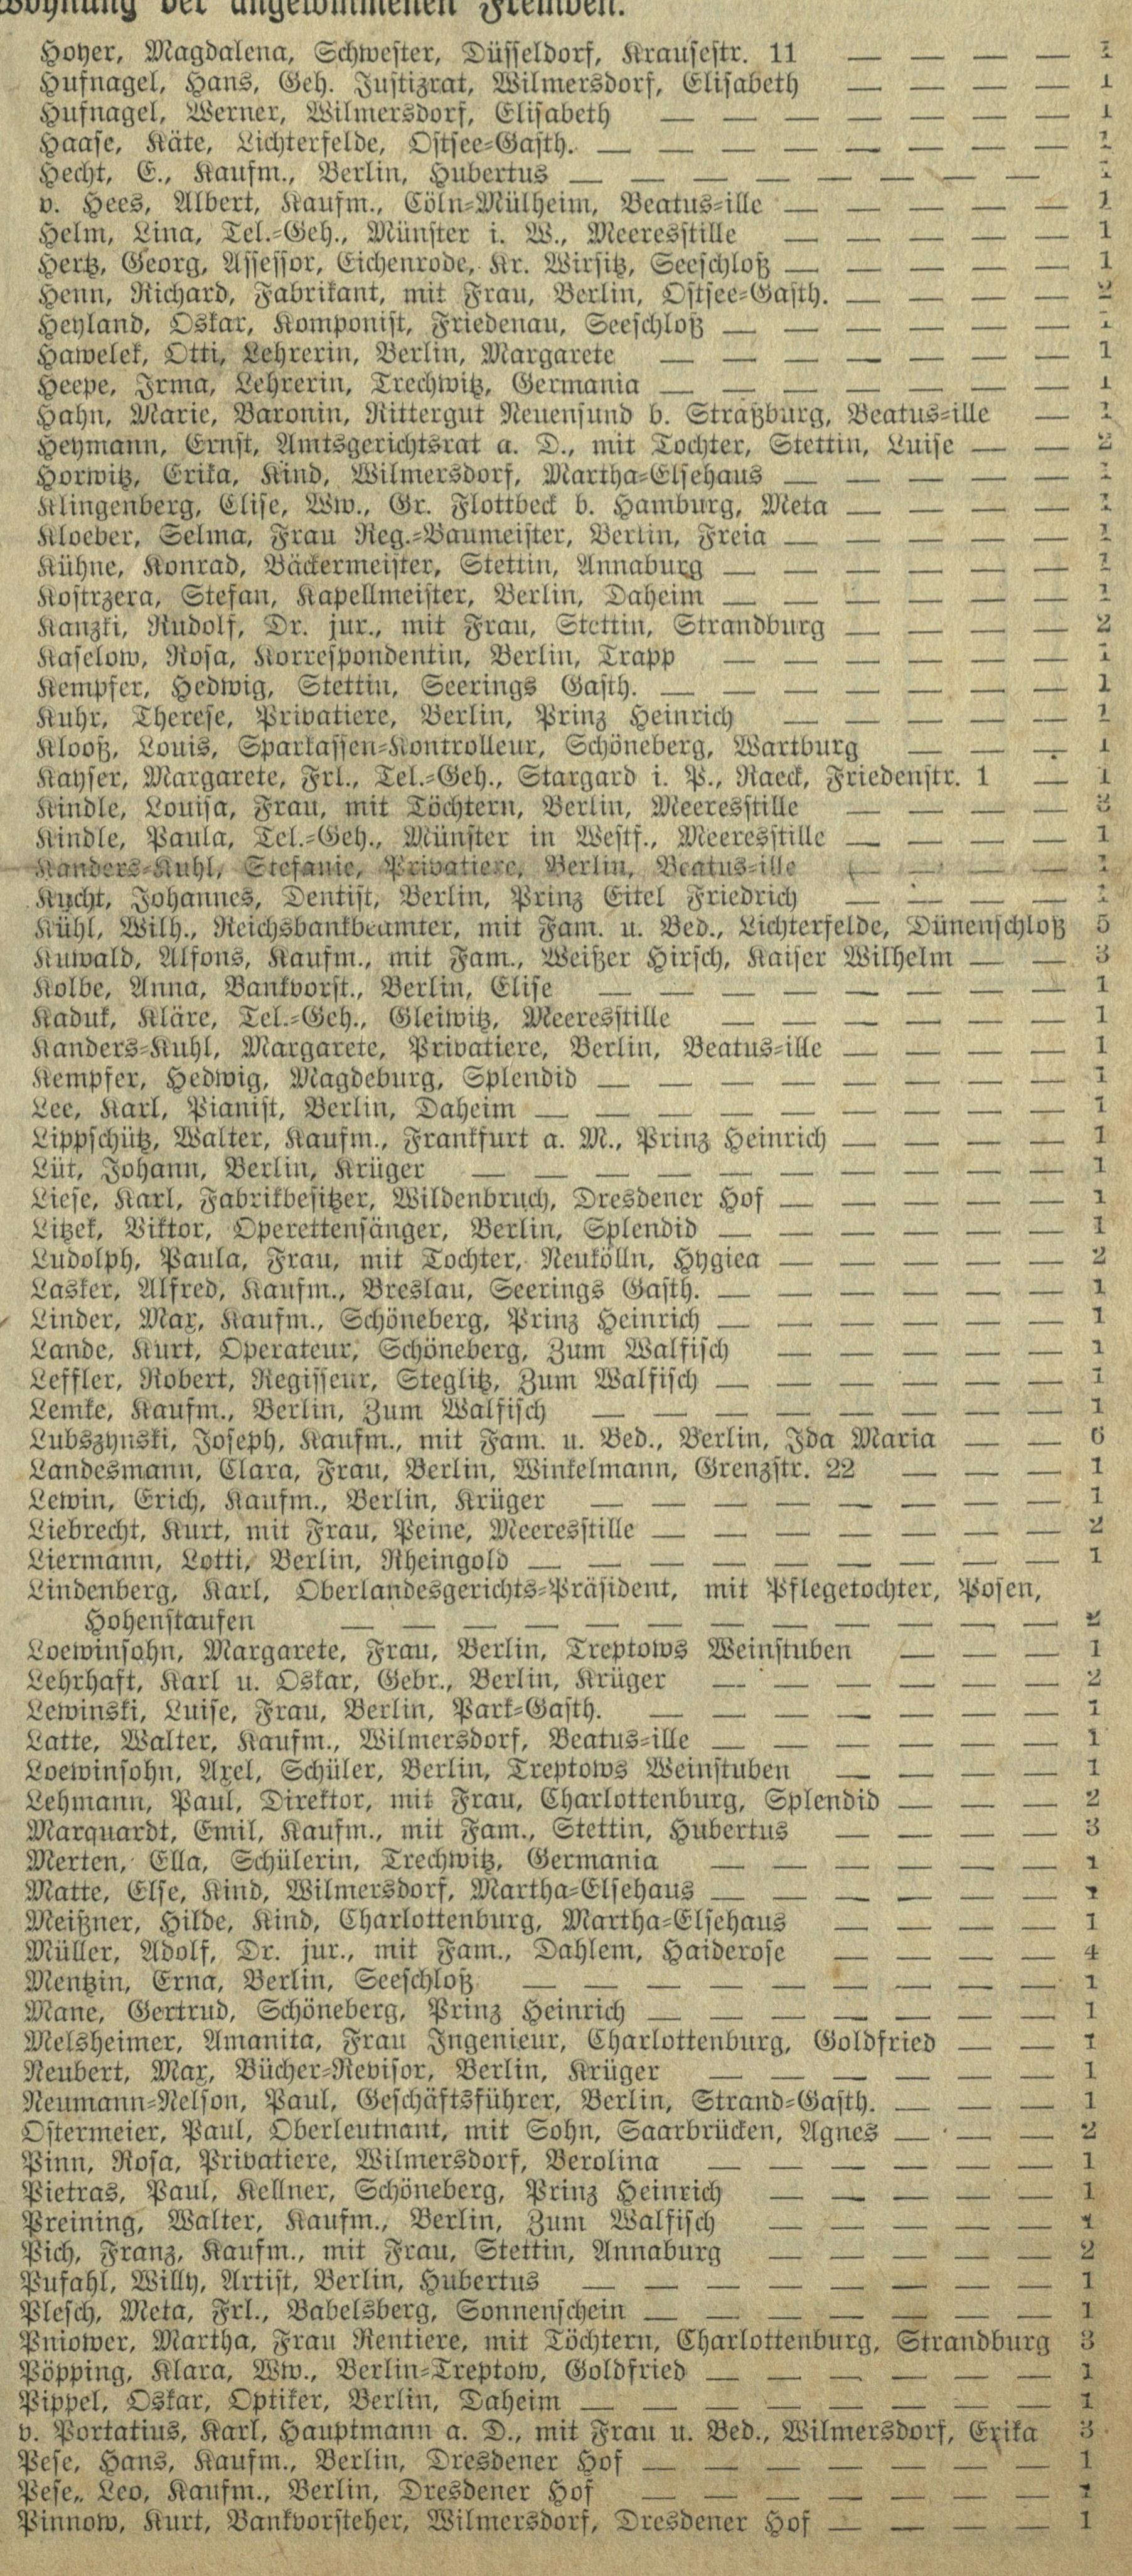Hoher, Magdalena, Schwester, Düsseldorf, Krausestr. 11 | 1
Husnagel, Hans, Geh. Justizrat, Wilmersdorf, Elisabeth | 1
Hufnagel, Werner, Wilmersdorf, Elisabeth | 1
Haase, Käte, Lichterfelde, Ostsee=Gasth. | 1
Hecht, G., Kaufm., Berlin, Hubertus | 1
v. Hees, Albert, Kaufm., Cöln=Mülheim, Beatus=ille | 1
Helm, Lina, Tel.=Geh., Münster i. W., Meeresstille | 1
Hertz, Georg, Assessor, Eichenrode, Kr. Wirsitz, Seeschloß | 1
Henn, Richard, Fabrikant, mit Frau, Berlin, Ostsee=Gasth. | 2
Heyland, Oskar, Komponist, Friedenau, Seeschloß | 1
Hawelek, Otti, Lehrerin, Berlin, Margarete | 1
Heepe, Irma, Lehrerin, Trechwitz, Germania | 1
Hahn, Marie, Baronin, Rittergut Neuensund b. Straßburg, Beatus=ille | 1
Heymann, Ernst, Amtsgerichtsrat a. D., mit Tochter, Stettin, Luise | 2
Horwitz, Erika, Kind, Wilmersdorf, Martha=Elsehaus | 1
Klingenberg, Elise, Ww., Gr. Flottbeck b. Hamburg, Meta | 1
Kloeber, Selma, Frau Reg.=Baumeister, Berlin, Freia | 1
Kühne, Konrad, Bäckermeister, Stettin, Annaburg | 1
Kostrzera, Stefan, Kapellmeister, Berlin, Daheim | 1
Kanzki, Rudolf, Dr. jur., mit Frau, Stettin, Strandburg | 2
Kaselow, Rosa, Korrespondentin, Berlin, Trapp | 1
Kempfer, Hedwig, Stettin, Seerings Gasth. | 1
Kuhr, Therese, Privatiere, Berlin, Prinz Heinrich | 1
Klooß, Louis, Sparkassen=Kontrolleur, Schöneberg, Wartburg | 1
Kayser, Margarete, Frl., Tel.=Geh., Stargard i. P., Raeck, Fridenstr. 1 | 1
Kindle, Louisa, Frau, mit Töchtern, Berlin, Meeresstille | 3
Kindle, Paula, Tel.=Geh., Münster in Westf., Meeresstille | 1
Kanders=Kuhl, Stefanie, Privatiere, Berlin, Beatus=ille | 1
Kucht, Johannes, Dentist, Berlin, Prinz Eitel Friedrich | 1
Kühl, Wilh., Reichsbankbeamter, mit Fam. u. Bed., Lichterfelde, Dünenschloß | 5
Kuwald, Alfons, Kaufm., mit Fam., Weißer Hirsch, Kaiser Wilhelm | 3
Kolbe, Anna, Bankvorst., Berlin, Elise | 1
Kaduk, Kläre, Tel.=Geh., Gleiwitz, Meeresstille | 1
Kanders=Kuhl, Margarete, Privatiere, Berlin, Beatus=ille | 1
Kempfer, Hedwig, Magdeburg, Splendid | 1
Lee, Karl, Pianist, Berlin, Daheim | 1
Lippschütz, Walter, Kaufm., Frankfurt a. M., Prinz Heinrich | 1
Lüt, Johann, Berlin, Krüger | 1
Liese, Karl, Fabrikbesitzer, Wildenbruch, Dresdener Hof | 1
Litzek, Viktor, Operettenfänger, Berlin, Splendid | 1
Ludolph, Paula, Frau, mit Tochter, Neukölln, Hygiea | 2
Lasker, Alfred, Kaufm., Breslau, Seerings Gasth. | 1
Linder, Max, Kaufm., Schöneberg, Prinz Heinrich | 1
Lande, Kurt, Operateur, Schöneberg, Zum Walfisch | 1
Leffler, Robert, Regisseur, Steglitz, Zum Walfisch | 1
Lemke, Kaufm., Berlin, Zum Walfisch | 1
Lubszynski, Joseph, Kaufm., mit Fam. u. Bed., Berlin, Ida Maria | 6
Landesmann, Clara, Frau, Berlin, Winkelmann, Grenzstr. 22 | 1
Lewin, Erich, Kaufm., Berlin, Krüger | 1
Liebrecht, Kurt, mit Frau, Peine, Meeresstille | 2
Liermann, Lotti, Berlin, Rheingold | 1
Lindenberg, Karl, Oberlandesgerichts=Präsident, mit Pflegetochter, Posen,
Hohenstaufen | 2
Loewinsohn, Margarete, Frau, Berlin, Treptows Weinstuben | 1
Lehrhaft, Karl u. Oskar, Gebr., Berlin, Krüger | 2
Lewinski, Luise, Frau, Berlin, Park=Gasth. | 1
Latte, Walter, Kaufm., Wilmersdorf, Beatus=ille | 1
Loewinsohn, Axel, Schüler, Berlin, Treptows Weinstuben | 1
Lehmann, Paul, Direktor, mit Frau, Charlottenburg, Splendid | 2
Marquardt, Emil, Kaufm., mit Fam., Stettin, Hubertus | 3
Merten, Ella, Schülerin, Trechwitz, Germania | 1
Matte, Else, Kind, Wilmersdorf, Martha=Elsehaus | 1
Meißner, Hilde, Kind, Charlottenburg, Martha=Elsehaus | 1
Müller, Adolf, Dr. jur., mit Fam., Dahlem, Haiderose | 4
Mentzin, Erna, Berlin, Seeschloß | 1
Mane, Gertrud, Schöneberg, Prinz Heinrich | 1
Melsheimer, Amanita, Frau Ingenieur, Charlottenburg, Goldfried | 1
Neubert, Max, Bücher=Revisor, Berlin, Krüger | 1
Neumann=Nelson, Paul, Geschäftsführer, Berlin, Strand=Gasth. | 1
Ostermeier, Paul, Oberleutnant, mit Sohn, Saarbrücken, Agnes | 2
Pinn, Rosa, Privatiere, Wilmersdorf, Berolina | 1
Pietras, Paul, Kellner, Schöneberg, Prinz Heinrich | 1
Preining, Walter, Kaufm., Berlin, Zum Walfisch | 1
Pich, Franz, Kaufm., mit Frau, Stettin, Annaburg | 2
Pufahl, Willy, Artist, Berlin, Hubertus | 1
Plesch, Meta, Frl., Babelsberg, Sonnenschein | 1
Pniower, Martha, Frau Rentiere, mit Töchtern, Charlottenburg, Strandburg | 3
Pöpping, Klara, Ww., Berlin=Treptow, Goldfried | 1
Pippel, Oskar, Optiker, Berlin, Daheim | 1
v. Portatius, Karl, Hauptmann a. D., mit Frau u. Bed., Wilmersdorf, Erika | 3
Pese, Hans, Kaufm., Berlin, Dresdener Hof | 1
Pese, Leo, Kaufm., Berlin, Dresdener Hof | 1
Pinnow, Kurt, Bankvorsteher, Wilmersdorf, Dresdener Hof | 1
